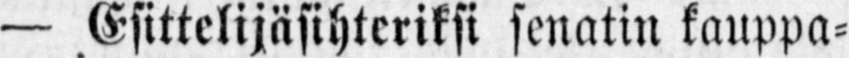— Esittelijäsihteriksi senatin kauppa-
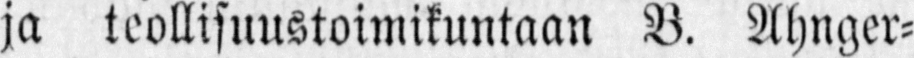ja teollisuustoimikuntaan B. Ahnger-
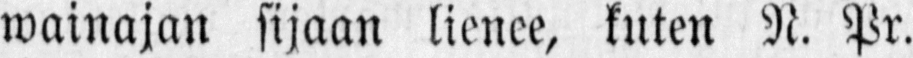wainajan sijaan lienee, kuten N. Pr.
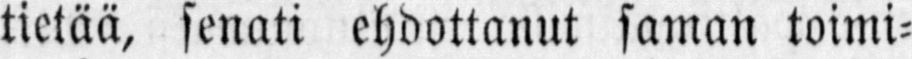tietää, senati ehdottanut saman toimi-
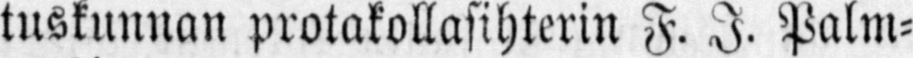tuskunnan protakollasihterin F. I. Palm-
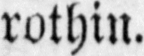rothin.
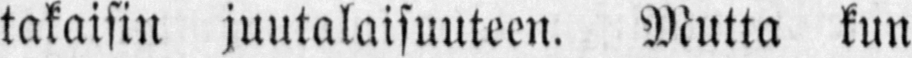takaisin juutalaisuuteen. Mutta kun
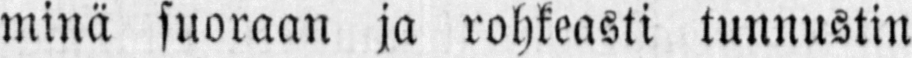minä suoraan ja rohkeasti tunnustin
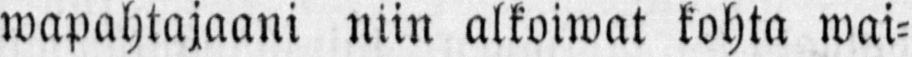wapahtajaani niin alkoiwat kohta wai-
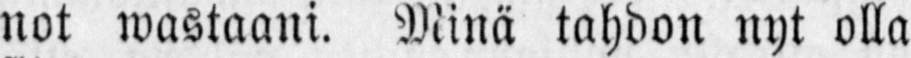not wastaani. Minä tahdon nyt olla
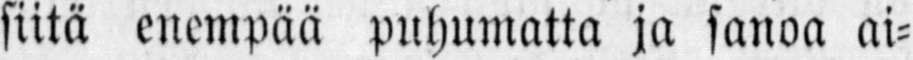siitä enempää puhumatta ja sanoa ai-
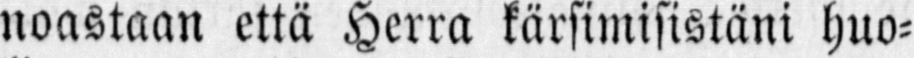noastaan että Herra kärsimisistäni huo-
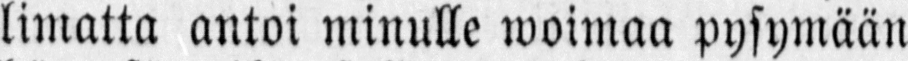limatta antoi minulle woimaa pysymään
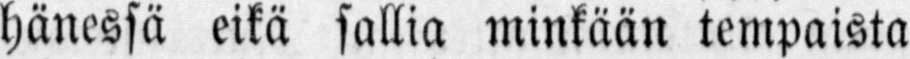hänessä eikä sallia minkään tempaista
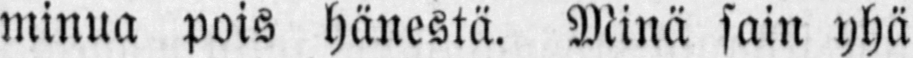minua pois hänestä. Minä sain yhä
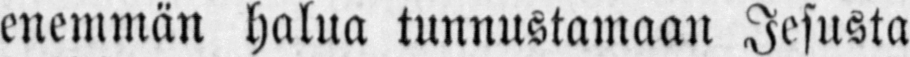enemmän halua tunnustamaan Jesusta
